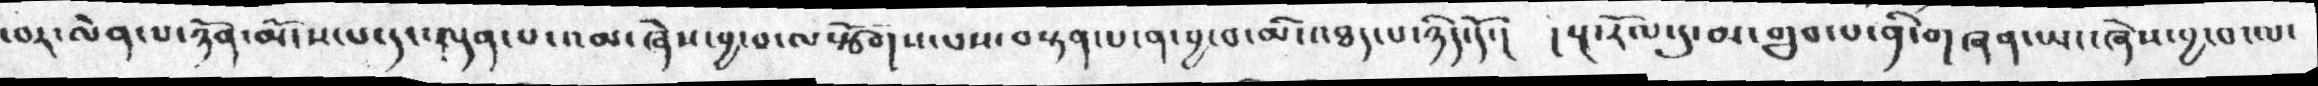བར་ལེན་པ་ཉོན་མོངས་དང་ལྡན་པ་འམ་ཞེས་བྱ་བ་ལསྩོགས་པས་བསྟན་པ་ན་བྱ་བ་མི་འཐད་པ་ཉིད་དོ་།     །སྔ་རོལ་དུ་མ་གྲུབ་པ་ནི་གཞན་ཡང་ཞེས་བྱ་བ་ལ་
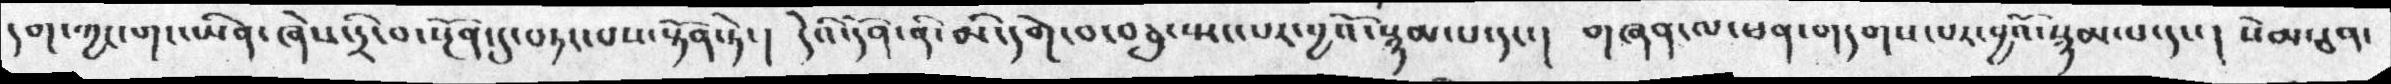དག་ཀྱང་གང་ཡིན་ཞེས་དྲི་བ་སྔོན་དུ་བཏང་པས་སྟོན་ཏེ་།  དེའི་དོན་ནི་མི་དགེ་བ་བཅུ་སྤང་པར་བྱའོ་སྙམ་པ་དང་།    གཞན་ལ་ཕན་གདགས་པར་བྱའོ་སྙམ་པ་དང་ ། སེམ་ཅན་
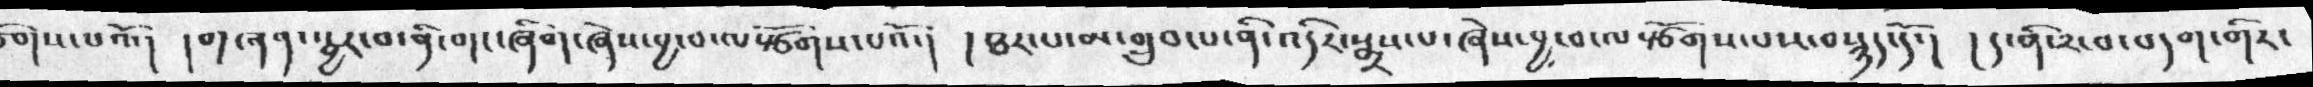གིས་པའོ་།  །གཞན་སྦྱར་བ་ནི་གང་ཞིག་ཞེས་བྱ་བ་ལསྩོགས་པའོ་།    ། ཐར་པ་མ་གྲུབ་པ་ནི་འདིར་སྨྲས་པ་ཞེས་བྱ་བ་ལསྩོགས་པས་བསྙད་དོ་།  ། ད་ནི་༢་བ་བདག་གིར་
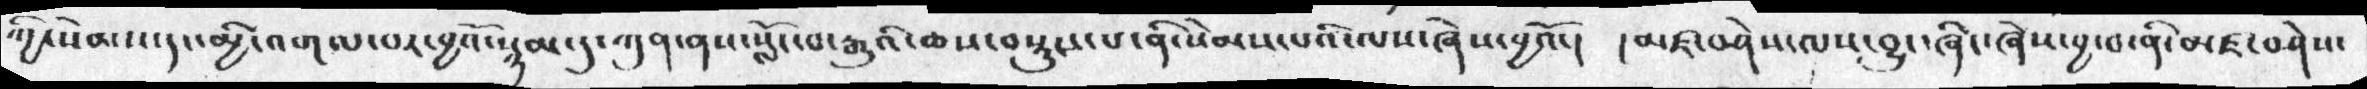ཀྱི་སེམས་དང་མྱི་འགལ་བར་བྱའོ་སྙམ་དུ་ཀུན་ནས་སློང་བ་རྒྱུའི་ཆས་བསྟུས་པ་ནི་སེམས་པའི་ལས་ཞེས་བྱའོ་།   ། མཛ་བཤེས་ལས་བྱུང་ཞིང་ཞེས་བྱ་བ་ནི་མཛ་བཤེས་
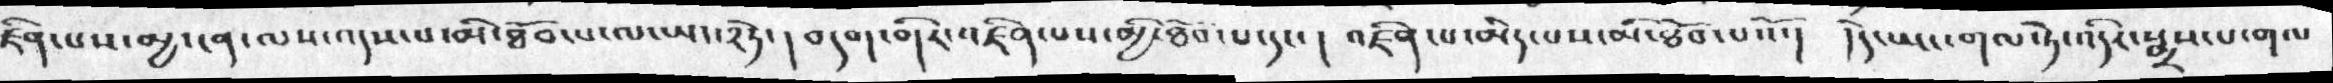ཛིན་པས་མྱ་ངན་ལས་འདས་པ་མི་ཐོབ་པ་ལ་ཡང་༢ཏེ་ ། བདག་གིར་འཛིན་པས་མྱི་ཐོབ་པ་དང་ ། འཛིན་པ་མེད་པས་མི་ཐོབ་པའོ་།  །  དེ་ཡང་གལ་ཏེ་འདིར་སྨྲས་པ་གལ
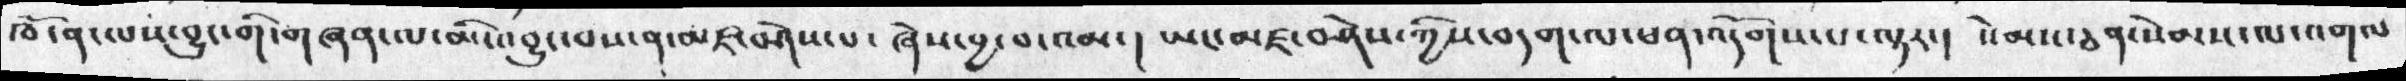ཁོ་ན་ལས་བྱུང་གི་གཞན་ལ་མི་འབྱུང་བས་ན་མཛ་བཤེས་པ་ཞེས་བྱ་བ་འམ་།   ཡང་མཛ་བཤེས་ཀྱིས་བདག་ལ་ཕན་འདོགས་པ་ལྟར་།  སེམས་ཅན་སེམས་ལ་འགལ་
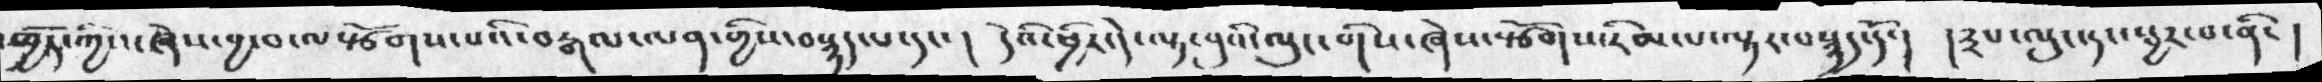ཁྱོད་ཀྱིས་ཞེས་བྱ་བ་ལསྩོགས་པའི་བརྒལ་ལན་གྱིས་བསྙད་པ་དང་  ། དེའི་ཕྱིར་དེ་ལྟ་བུའི་ལུང་གིས་ཞེསསྩོགས་རིམ་པ་ལྟར་བསྙད་དོ་།   །༣པ་ལུང་དང་སྦྱར་བ་ནི་  །
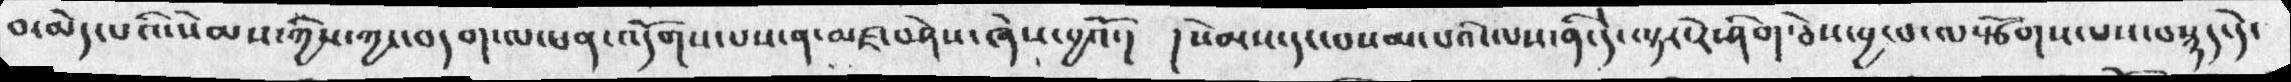བ་མེད་པའི་སེམས་ཀྱིས་ཀྱང་བདག་ལ་ཕན་འདོག་པས་ན་མཛ་བཤེས་ཞེས་བྱའོ་།  ། སེམས་དང་བསམ་པའི་ལས་ནི་དེ་ལྟར་རེ་ཤིག་ཅེས་བྱ་བ་ལསྩོགས་པས་བསྙད་དེ་
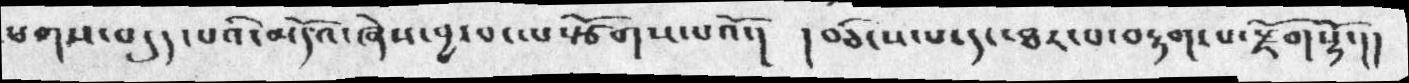ཕགས་བདུན་པའི་མདོའ་ཞེས་བྱ་བ་ལསྩོགས་པའོ་།    །བཅིངས་པ་དང་ཐལ་བ་བརྟག་པ་སྫོགསྷོ་།།
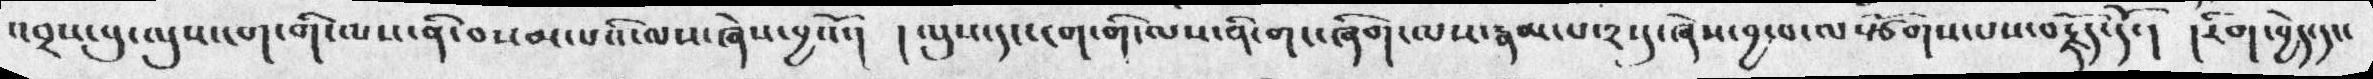འབྲས་བུ་ལུས་ངག་གི་ལས་ནི་བསམ་པའི་ལས་ཞེས་བྱའོ་།   །ལུས་དང་ངག་གི་ལས་ནི་གང་ཞིག་ལས་རྣམ་པ་༢་དུ་ཞེས་བྱ་བ་ལསྩོགས་པས་བརྗོད་དོ་།  །རིག་བྱེད་དང་
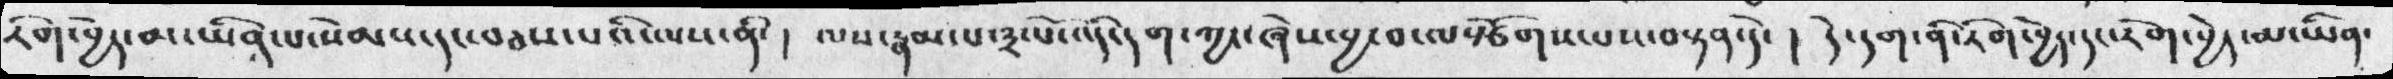རིག་བྱེད་མ་ཡིན་པ་སེམས་དང་བཅས་པའི་ལས་ནི་ ། ལས་རྣམ་པ་༣་པོ་འདི་དག་ཀྱང་ཞེས་བྱ་བ་ལསྩོགས་པས་བསྟན་དེ་     ། དེ་དག་ནི་རིག་བྱེད་དང་རིག་བྱེད་མ་ཡིན་
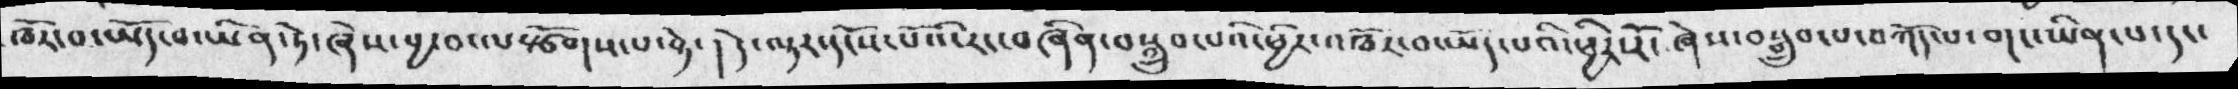ཁོར་བ་ཡོད་བ་ཡིན་ཏེ་ཞེས་བྱ་བ་ལསྩོགས་པ་སྟེ་    ། དེ་ལྟར་དངོས་པོའི་རང་བཞིན་བསྒྲུབ་པའི་ཕྱིར་འཁོར་བ་ཡོད་པའི་ཕྱིར་རོ་ ཞེས་བསྒྲུབ་པ་བཀོད་པ་གང་ཡིན་པ་དང་
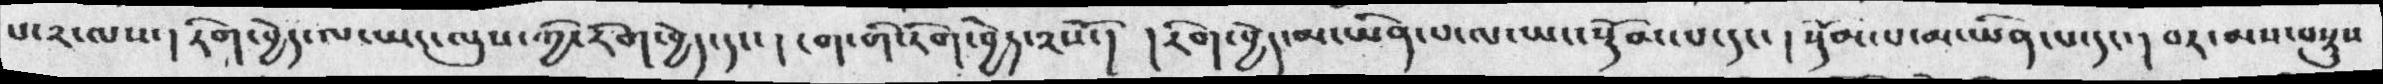པ་༢་ལས་། རིག་བྱེད་ལ་ཡང་ལུས་གྱི་རིག་བྱེད་དང་ ། ངག་གི་རིག་བྱེད་༢སོ་།   །རིག་བྱེད་མ་ཡིན་པ་ལ་ཡང་སྡོམ་པ་དང་ ། སྡོམ་པ་མ་ཡིན་པ་དང་།  བར་མས་བསྡུས
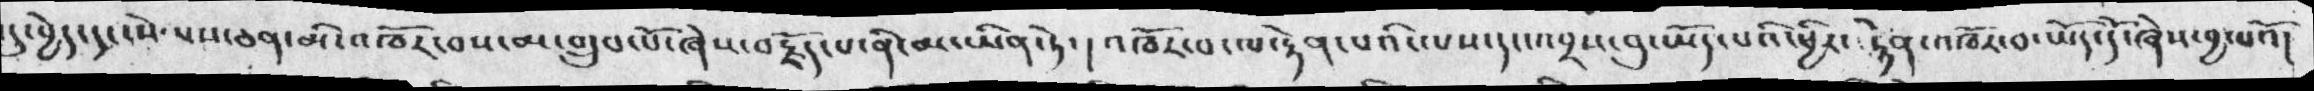དུ་བྱེད་དང་སེམས་ཅན་མི་འཁོར་བས་མ་གྲུབ་པོ་ཞེས་བརྗོད་པ་ནི་མ་ཡིན་ཏེ་ ། འཁོར་བ་ལ་རྟེན་པའི་ལས་དང་འབྲས་བུ་ཡོད་པའི་ཕྱིར་  རྟེན་འཁོར་བ་ཡོད་དོ་ཞེས་བྱ་པའོ་།
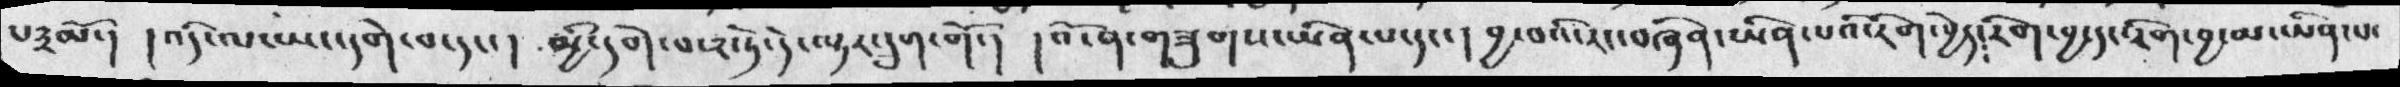པ༣མོ་།  །འདི་ལ་ཡང་དགེ་བ་དང་།  མྱི་དགེ་པ་༢་ཏེ་དེ་ལྟར་དྲུག་གོ་།  །འོ་ན་གཟུགས་ཡིན་པ་དང་ ། བྱ་བའི་རང་བཞིན་ཡིན་པའི་རིག་བྱེད༴རིག་བྱ་དང་རིག་བྱ་མ་ཡིན་པ་
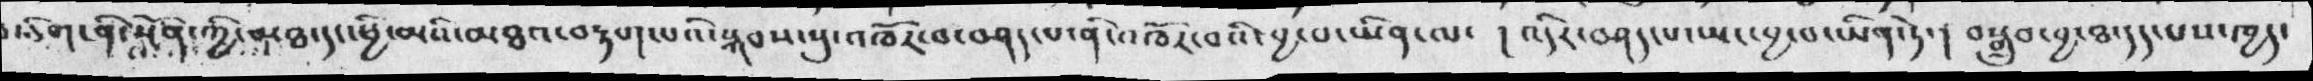ཅིག་ནི་སྔོན་ཀྱི་མཐ་དང་ཕྱི་མའི་མཐའ་བརྟག་པའི་སྐབས་སུ་འཁོར་བ་བཤད་པ་ནི་འཁོར་བའི་བྱ་བ་ཡིན་ལ་   ། འདིར་བཤད་པ་ཡང་བྱ་བ་ཡིན་ཏེ་། བསྒྲུབ་བྱ་ཐ་དད་པས་ཁྱད་
